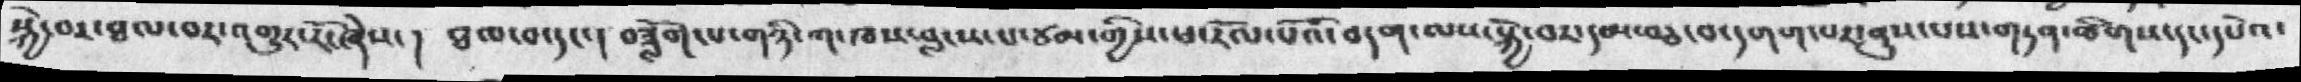སྐྱེ་བར་ཐལ་བར་འགྱུར་རོ་ཞེས་ ། ཐལ་བ་དང་། བཟློག་པ་གཉིས་ཀ་ཁས་བླངས་པ་ཙམ་གྱིས་ཕ་རོལ་པོའི་བདག་ལས་སྐྱེ་བར་དམ་བཅ་བ་དགག་པར་ནུས་པས་གཏན་ཚིགས་དང་དཔེའ་
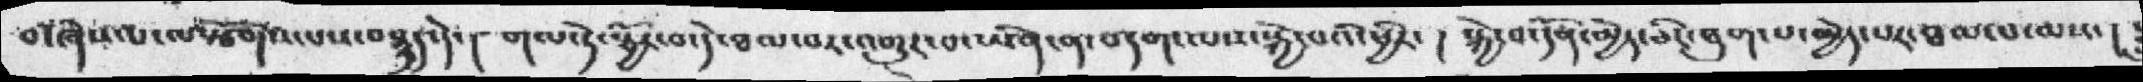བ་ཞིས་པ་ལསྩོགས་པས་བསྙད་དེ་།  གལ་ཏེ་སྦྱོར་བ་དེ་ཐལ་བར་འགྱུར་བ་ཡིན་ན་བདག་ལས་སྐྱེ་བའི་ཕྱིར་།  སྐྱེ་བ་དོན་མྱེད་ཅིང་ཐུག་པ་མྱེད་པར་ཐལ་པ་ལས་།
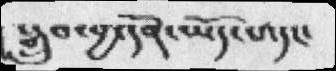སྒྲུབ་བྱ་དོན་ཡོད་པ་དང་
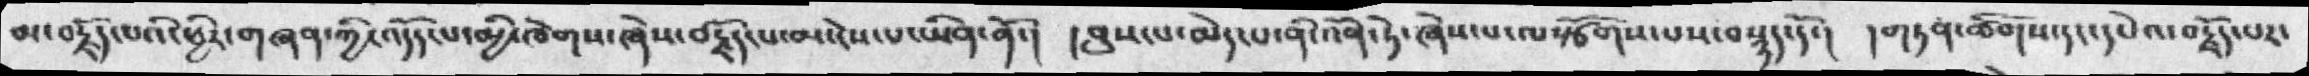མ་བརྗོད་པའི་ཕྱིར་གཞན་ཀྱི་འདོད་པ་མྱི་ཁེགས་ཞེས་བརྗོད་པ་མ་ངེས་པ་ཡིན་ནོ་།  དབུས་པ་མེད་པ་ནི་འོན་ཏེ་ཞེས་པ་ལསྩོགས་པས་བསྙད་དོ་།  །གཏན་ཚིགས་དང་དཔེའ་བརྗོད་པར་
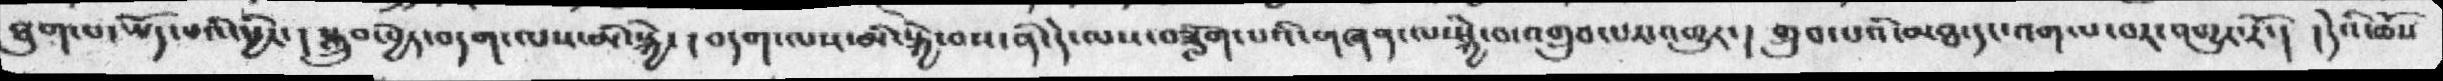ཐུག་པ་ཡོད་པའི་ཕྱིར་ ། སྒྲུབ་བྱེད་བདག་ལས་མི་སྐྱེ་། བདག་ལས་མི་སྐྱེ་བས་ནི་དེ་ལས་བཟློག་པའི་གཞན་ལ་སྐྱེ་བ་འགྲུབ་པར་འགྱུར་། གྲུབ་པའི་མཐ་དང་འགལ་བར་འགྱུར་རོ་།  །དེའི་ཆོས
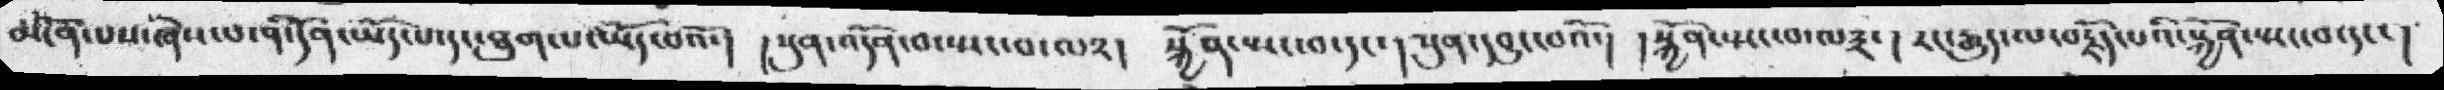མངོན་པས་ཞེས་པ་ནི་དོན་ཡོད་པ་དང་ཐུག་པ་ཡོད་པའོ་།  །སུན་འདོན་བ་སྤང་བ་ལ༢།  སྐྱོན་སྤང་བ་དང་། སུན་དབྱུང་བའོ་།  སྐྱོན་སྤང་བ་ལ༣་། རང་རྒྱུད་ལ་བརྗོད་པའི་སྐྱོན་སྤང་བ་དང་།
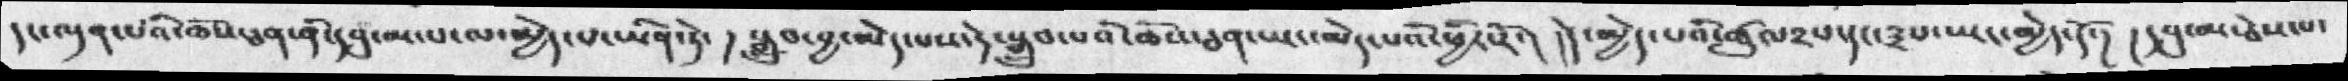དང་ལྡན་པའི་ཆོས་ཅན་ནི་དབུ་མ་པ་ལས་མྱེད་པ་ཡིན་ཏེ་།  སྒྲུབ་བྱ་མེད་པས་དེ་སྒྲུབ་པའི་ཆོས་ཅན་ཡང་མེད་པའི་ཕྱིར་རོ་།  །དེ་མྱེད་པའི་ཚུལ༢པ་དང་༣པ་ཡང་མྱེད་དོ་། །དབུ་མ་ཅེས་པ་
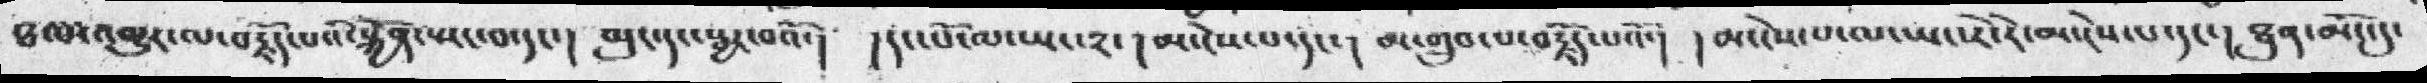ཐལ་འགྱུར་ལ་བརྗོད་པའི་སྐྱོན་སྤང་བ་དང་།  ལུང་དང་སྦྱར་བའོ་།  །དང་པོ་ལ་ཡང་༢་། མ་ངེས་པ་དང་། མ་གྲུབ་པ་བརྗོད་པའོ་། ། མ་ངེས་པ་ལ་ཡང་རེ་རེ་མ་ངེས་པ་དང་། ཐུན་མོང་དུ་
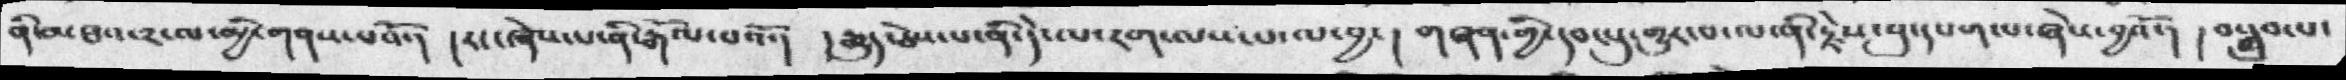ནི་མཐའ་༢་ལ་མྱི་གནས་པའོ་། །རང་ཞེས་པ་ནི་རྒོལ་པའོ་།  །རྒྱུད་ཅེས་པ་ནི་དེ་ལ་རག་ལས་པ་ལ་བྱ་།  གཞན་གྱི་དབང་དུ་གྱུར་པ་ལ་ནི་རྗེས་སུ་དཔག་པ་ཞེས་བྱའོ་། ། བསྒྲུབ་པ་
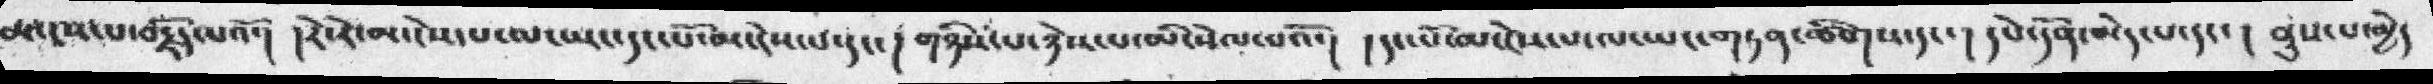མ་ངས་པ་བརྗོད་པའོ་།  །རེ་རེ་མ་ངེས་པ་ལ་ཡང་དང་པོ་མ་ངེས་པ་དང་། གཉིས་པ་ཉེས་པ་མི་སེལ་པའོ་།  །དང་པོ་མ་ངེས་པ་ལ་ཡང་གཏན་ཚིགས་དང་། དཔེ་དོན་མེད་པ་དང་། ནུས་པ་མྱེད
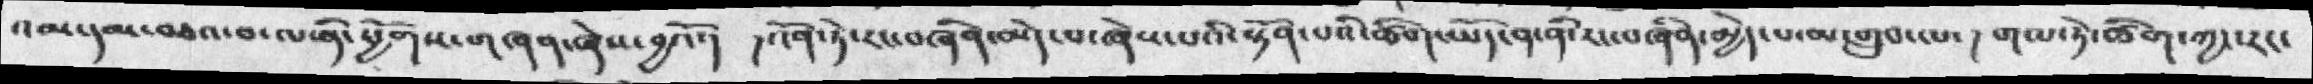འམ་དམ་བཅའ་བ་ལ་ནི་ཕྱོགས་གཞན་ཞེས་བྱའོ་།  །འོན་ཏེ་རང་བཞིན་མེད་པ་ཞེས་པའི་སྟོན་པའི་ཚིག་ཡོད་ན་ནི་རང་བཞིན་མྱེད་པ་མ་གྲུབ་པ་། གལ་ཏེ་ཚིག་ཀྱང་རང་
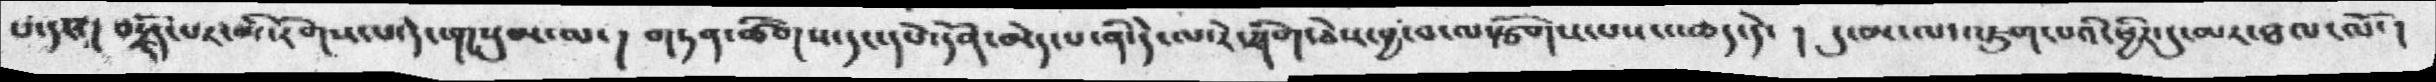པ་དང་། བརྗོད་པར་མི་རིགས་པ་དེ་གསུམ་ལ་།  གཏན་ཚིགས་དང་དཔེ་དོན་མེད་པ་ནི་དེ་ལ་རེ་ཤིག་ཅེས་བྱ་བ་ལསྩོགས་པས་འཆད་དེ་ ། དུ་མ་ལ་འཇུག་པའི་ཕྱིར་དུ་མར་ཐལ་ལོ་།
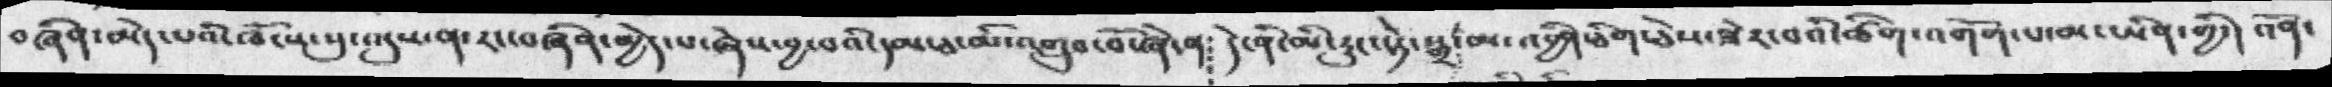བཞིན་མེད་པའི་ཁོངས་སུ་འདུས་ན་རང་བཞིན་མྱེད་པ་ཞེས་བྱ་བའི་དམ་ཅ་མི་འགྲུབ་པོ་ཞེ་ན༴  དེ་ནི་མི་རུང་སྟེ་སྒྲ༴མ་འབྱིན་ཅིག་ཅེས་ཟེར་བའི་ཚིག་འགོག་པ་མ་ཡིན་གྱི་། འོན་
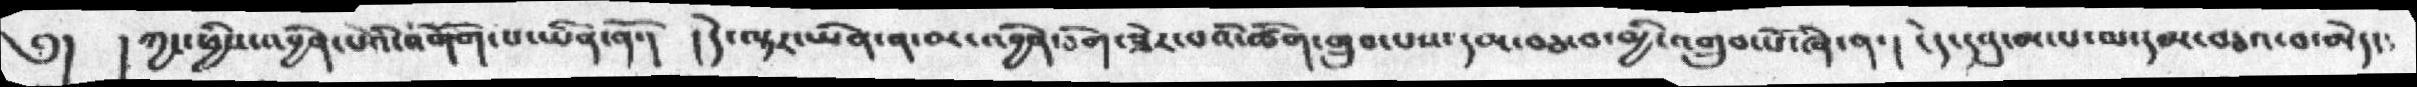༄།   ། ཀྱང་ཕྱིས་འབྱིན་པའི་འགོག་པ་ཡིན་ནོ་།  །དེ་ལྟར་ཡིན་ན་མ་འབྱིན་ཅིག་ཟེར་པའི་ཚིག་གྲུབ་པས་དམ་བཅ་བ་མྱི་འགྲུབ་པོ་ཞེ་ན་།  ངེད་དབུ་མ་པ་ལ་དམ་བཅའ་བ་མེད་༴
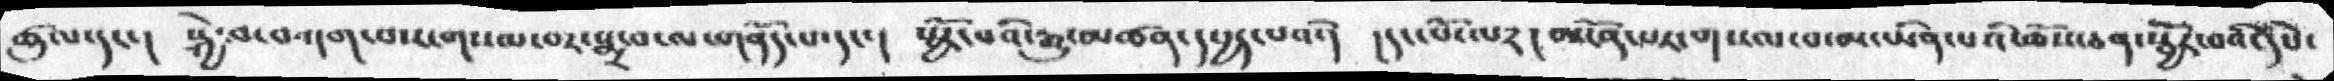ཚུལ་དང་།  སྐྱེ་བ་བཀག་པས་གསལ་བར་སྨྲ་བ་ལ་གནོད་པ་དང་།  སྦྱོར་བའི་རྒྱུ་མཚན་དཔྱད་པའོ་།  །དང་པོ་ལ༢། མངོན་པར་གསལ་པ་མ་ཡིན་པའི་ཆོས་ཅན་སྦྱོར་བའི་དཔེ་
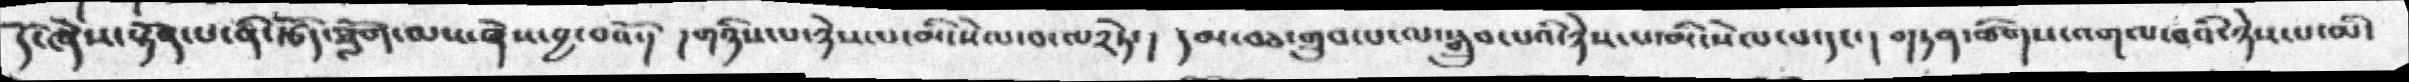དོ་ཞེས་སྟོན་པ་ནི་རྩོད་ཟློག་མས་ཞེས་བྱ་བའོ་། །གཉིས་པ་ཉེས་པ་མི་སེལ་བ་ལ༢ཏེ་།  དམ་བཅ་གྲུབ་པ་ལ་སྒྲུབ་པའི་ཉེས་པ་མི་སེལ་པ་དང་།  གཏན་ཚིགས་འགལ་བའི་ཉེས་པ་མི་
